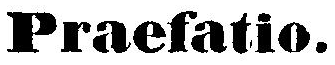Praefatio.
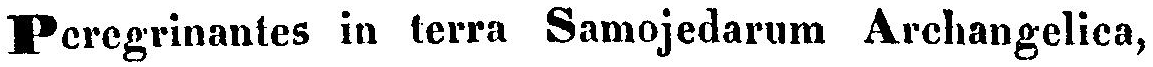Peregrinantes in terra Samojedarum Archangelica,
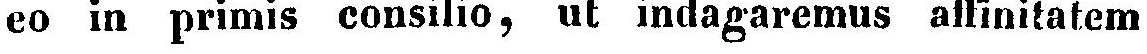eo in primis consilio, ut indagaremus assinitatem
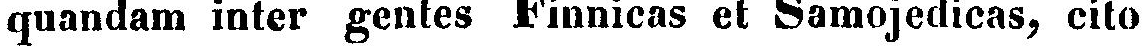quandam inter gentes Finnicas et Samojedicas, cito
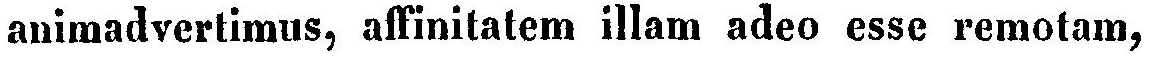animadvertimus, affinitatem illam adeo esse remotam,
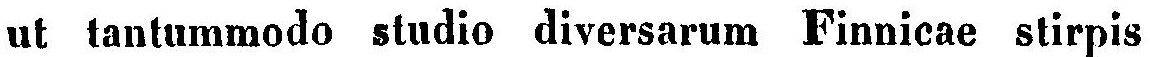ut tantummodo studio diversarum Finnicae stirpis
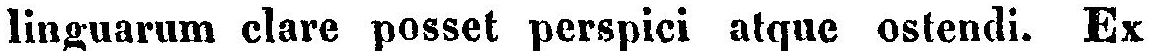linguarum clare posset perspici atque ostendi. Ex
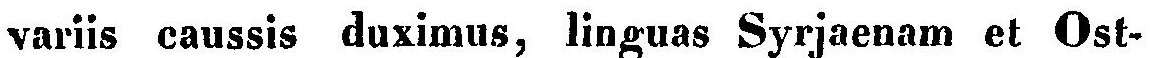variis caussis duximus, linguas Syrjaenam et Ost-
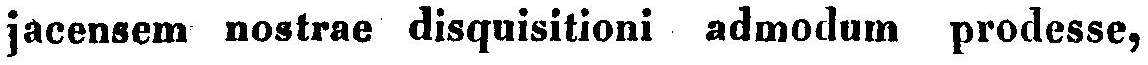jacensem nostrae disquisitioni admodum prodesse,
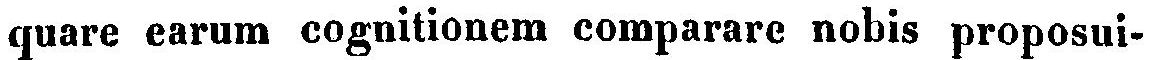quare earum cognitionem comparare nobis proposui-
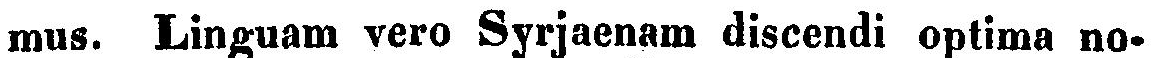mus. Linguam vero Syrjaenam discendi optima no-
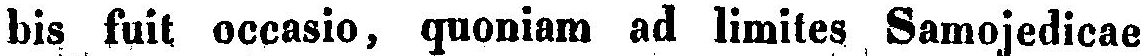bis fuit occasio, quoniam ad limites Samojedicae
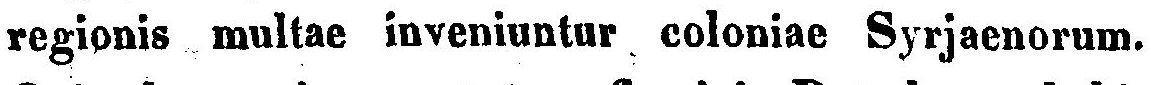regionis multae inveniuntur coloniae Syrjaenorum.
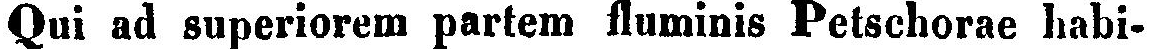Qui ad superiorem partem fluminis Petschorae habi-
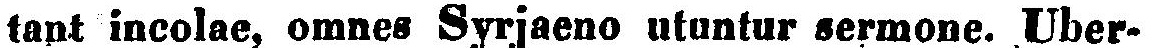tant incolae, omnes Syrjaeno utuntur sermone. Uber-
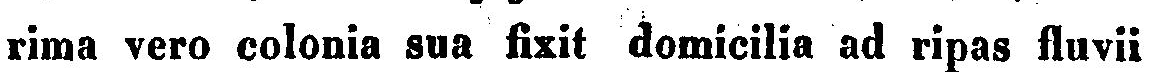rima vero colonia sua fixit domicilia ad ripas fluvii
